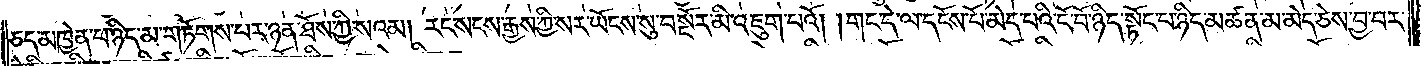ཅད་མཁྱེན་པ་ཉིད་མ་གཏོགས་པར་ཉན་ཐོས་ཀྱི་སའམ། རང་སངས་རྒྱས་ཀྱི་སར་ཡོངས་སུ་བསྔོར་མི་འཇུག་པའོ། །གང་དེ་ལ་དངོས་པོ་མེད་པའི་ངོ་བོ་ཉིད་སྟོང་པ་ཉིད་མཚན་མ་མེད་ཅེས་བྱ་བར་
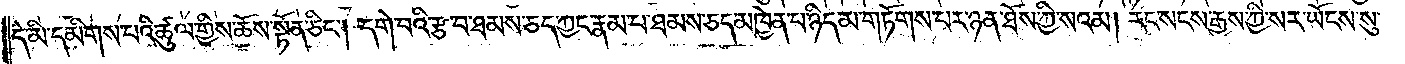དེ་མི་དམིགས་པའི་ཚུལ་གྱིས་ཆོས་སྟོན་ཅིང༌། དགེ་བའི་རྩ་བ་ཐམས་ཅད་ཀྱང་རྣམ་པ་ཐམས་ཅད་མཁྱེན་པ་ཉིད་མ་གཏོགས་པར་ཉན་ཐོས་ཀྱི་སའམ། རང་སངས་རྒྱས་ཀྱི་སར་ཡོངས་སུ་
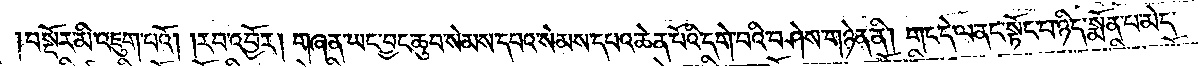བསྔོར་མི་འཇུག་པའོ། །རབ་འབྱོར། གཞན་ཡང་བྱང་ཆུབ་སེམས་དཔའ་སེམས་དཔའ་ཆེན་པོའི་དགེ་བའི་བཤེས་གཉེན་ནི། གང་དེ་ལ་ནང་སྟོང་པ་ཉིད་སྨོན་པ་མེད་
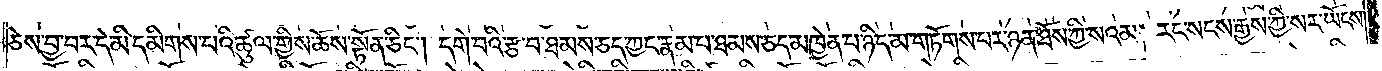ཅེས་བྱ་བར་དེ་མི་དམིགས་པའི་ཚུལ་གྱིས་ཆོས་སྟོན་ཅིང༌། དགེ་བའི་རྩ་བ་ཐམས་ཅད་ཀྱང་རྣམ་པ་ཐམས་ཅད་མཁྱེན་པ་ཉིད་མ་གཏོགས་པར་ཉན་ཐོས་ཀྱི་སའམ། རང་སངས་རྒྱས་ཀྱི་སར་ཡོངས་
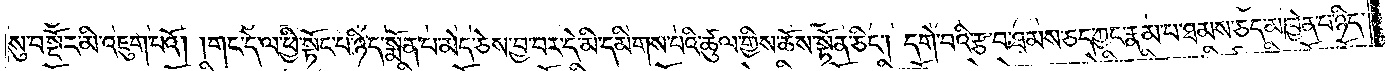སུ་བསྔོར་མི་འཇུག་པའོ། །གང་དེ་ལ་ཕྱི་སྟོང་པ་ཉིད་སྨོན་པ་མེད་ཅེས་བྱ་བར་དེ་མི་དམིགས་པའི་ཚུལ་གྱིས་ཆོས་སྟོན་ཅིང༌། དགེ་བའི་རྩ་བ་ཐམས་ཅད་ཀྱང་རྣམ་པ་ཐམས་ཅད་མཁྱེན་པ་ཉིད་
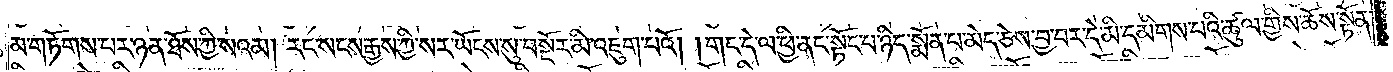མ་གཏོགས་པར་ཉན་ཐོས་ཀྱི་སའམ། རང་སངས་རྒྱས་ཀྱི་སར་ཡོངས་སུ་བསྔོར་མི་འཇུག་པའོ། །གང་དེ་ལ་ཕྱི་ནང་སྟོང་པ་ཉིད་སྨོན་པ་མེད་ཅེས་བྱ་བར་དེ་མི་དམིགས་པའི་ཚུལ་གྱིས་ཆོས་སྟོན་
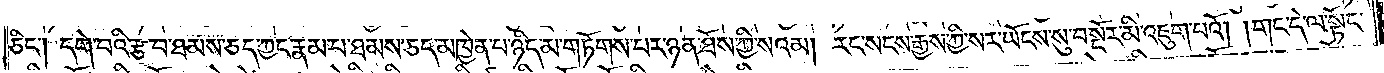ཅིང༌། དགེ་བའི་རྩ་བ་ཐམས་ཅད་ཀྱང་རྣམ་པ་ཐམས་ཅད་མཁྱེན་པ་ཉིད་མ་གཏོགས་པར་ཉན་ཐོས་ཀྱི་སའམ། རང་སངས་རྒྱས་ཀྱི་སར་ཡོངས་སུ་བསྔོར་མི་འཇུག་པའོ། །གང་དེ་ལ་སྟོང་
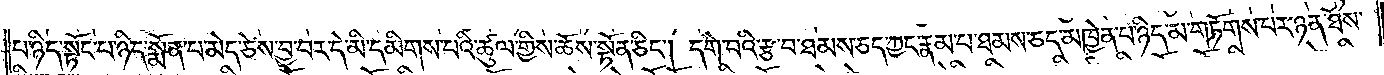པ་ཉིད་སྟོང་པ་ཉིད་སྨོན་པ་མེད་ཅེས་བྱ་བར་དེ་མི་དམིགས་པའི་ཚུལ་གྱིས་ཆོས་སྟོན་ཅིང༌། དགེ་བའི་རྩ་བ་ཐམས་ཅད་ཀྱང་རྣམ་པ་ཐམས་ཅད་མཁྱེན་པ་ཉིད་མ་གཏོགས་པར་ཉན་ཐོས་
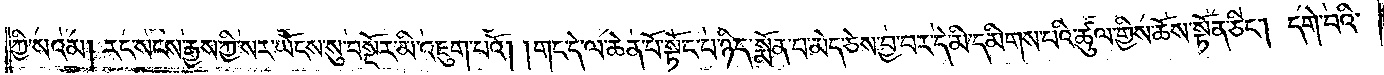ཀྱི་སའམ། རང་སངས་རྒྱས་ཀྱི་སར་ཡོངས་སུ་བསྔོར་མི་འཇུག་པའོ། །གང་དེ་ལ་ཆེན་པོ་སྟོང་པ་ཉིད་སྨོན་པ་མེད་ཅེས་བྱ་བར་དེ་མི་དམིགས་པའི་ཚུལ་གྱིས་ཆོས་སྟོན་ཅིང༌། དགེ་བའི་
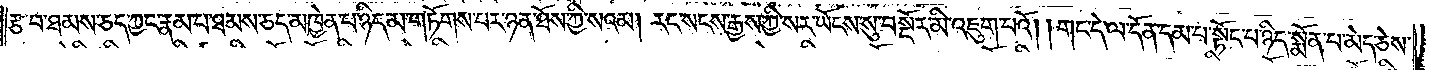རྩ་བ་ཐམས་ཅད་ཀྱང་རྣམ་པ་ཐམས་ཅད་མཁྱེན་པ་ཉིད་མ་གཏོགས་པར་ཉན་ཐོས་ཀྱི་སའམ། རང་སངས་རྒྱས་ཀྱི་སར་ཡོངས་སུ་བསྔོར་མི་འཇུག་པའོ། །གང་དེ་ལ་དོན་དམ་པ་སྟོང་པ་ཉིད་སྨོན་པ་མེད་ཅེས་
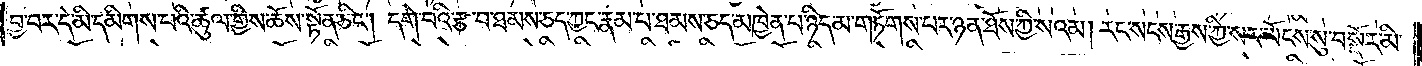བྱ་བར་དེ་མི་དམིགས་པའི་ཚུལ་གྱིས་ཆོས་སྟོན་ཅིང༌། དགེ་བའི་རྩ་བ་ཐམས་ཅད་ཀྱང་རྣམ་པ་ཐམས་ཅད་མཁྱེན་པ་ཉིད་མ་གཏོགས་པར་ཉན་ཐོས་ཀྱི་སའམ། རང་སངས་རྒྱས་ཀྱི་སར་ཡོངས་སུ་བསྔོར་མི་
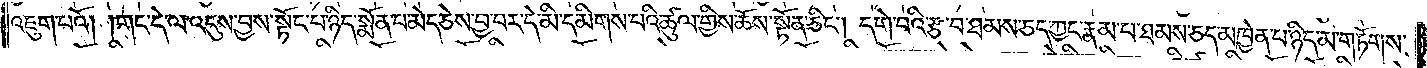འཇུག་པའོ། །གང་དེ་ལ་འདུས་བྱས་སྟོང་པ་ཉིད་སྨོན་པ་མེད་ཅེས་བྱ་བར་དེ་མི་དམིགས་པའི་ཚུལ་གྱིས་ཆོས་སྟོན་ཅིང༌། དགེ་བའི་རྩ་བ་ཐམས་ཅད་ཀྱང་རྣམ་པ་ཐམས་ཅད་མཁྱེན་པ་ཉིད་མ་གཏོགས་
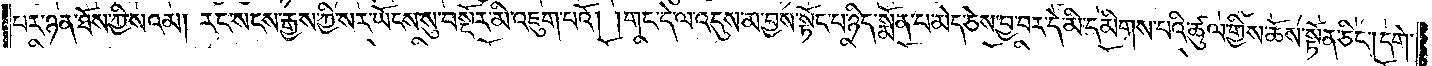པར་ཉན་ཐོས་ཀྱི་སའམ། རང་སངས་རྒྱས་ཀྱི་སར་ཡོངས་སུ་བསྔོར་མི་འཇུག་པའོ། །གང་དེ་ལ་འདུས་མ་བྱས་སྟོང་པ་ཉིད་སྨོན་པ་མེད་ཅེས་བྱ་བར་དེ་མི་དམིགས་པའི་ཚུལ་གྱིས་ཆོས་སྟོན་ཅིང༌། དགེ་
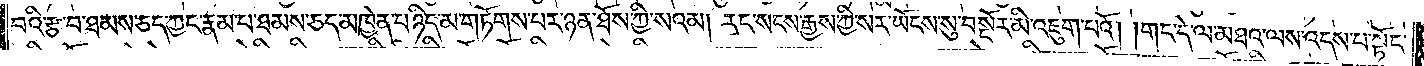བའི་རྩ་བ་ཐམས་ཅད་ཀྱང་རྣམ་པ་ཐམས་ཅད་མཁྱེན་པ་ཉིད་མ་གཏོགས་པར་ཉན་ཐོས་ཀྱི་སའམ། རང་སངས་རྒྱས་ཀྱི་སར་ཡོངས་སུ་བསྔོར་མི་འཇུག་པའོ། །གང་དེ་ལ་མཐའ་ལས་འདས་པ་སྟོང་
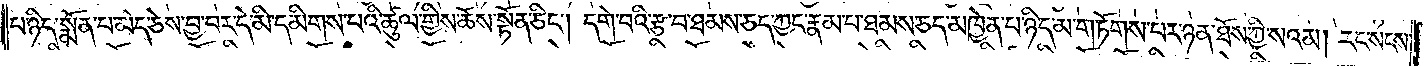པ་ཉིད་སྨོན་པ་མེད་ཅེས་བྱ་བར་དེ་མི་དམིགས་པའི་ཚུལ་གྱིས་ཆོས་སྟོན་ཅིང༌། དགེ་བའི་རྩ་བ་ཐམས་ཅད་ཀྱང་རྣམ་པ་ཐམས་ཅད་མཁྱེན་པ་ཉིད་མ་གཏོགས་པར་ཉན་ཐོས་ཀྱི་སའམ། རང་སངས་
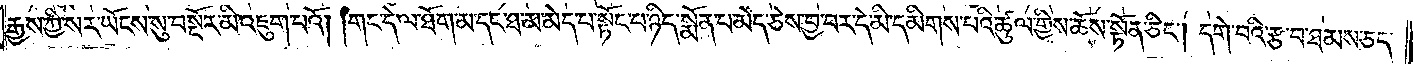རྒྱས་ཀྱི་སར་ཡོངས་སུ་བསྔོར་མི་འཇུག་པའོ། །གང་དེ་ལ་ཐོག་མ་དང་ཐ་མ་མེད་པ་སྟོང་པ་ཉིད་སྨོན་པ་མེད་ཅེས་བྱ་བར་དེ་མི་དམིགས་པའི་ཚུལ་གྱིས་ཆོས་སྟོན་ཅིང༌། དགེ་བའི་རྩ་བ་ཐམས་ཅད་
